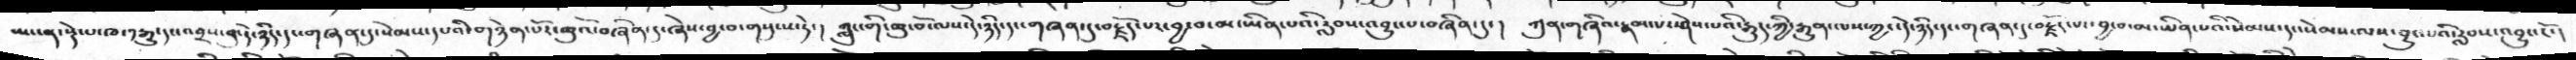ཡང་ན་སྡེ་པ་ཁ་༡རྒྱུ་དང་འབྲས་བུ་དེ་ཉིད་དང་གཞན་དུ་སེམས་དཔའི་གཉེན་པོར་ཆུའོ་བཞིན་དུ་ཞེས་བྱ་བ་གསུངས་ཏེ་།  ཀླུང་གི་ཆུ་བོ་ལས་དེ་ཉིད་དང་གཞན་དུ་བརྗོད་པར་བྱ་བ་མ་ཡིན་པའི་རླབས་འབྱུང་པ་བཞིན་དུ།  ཀུན་གཞིའ་རྣམ་པར་ཤེས་པའི་རྒྱུད་ཀྱི་རྒྱུན་ལས་ཀྱང་དེ་ཉིད་དང་གཞན་དུ་བརྗོད་པར་བྱ་བ་མ་ཡིན་པའི་སེམས་དང་སེམས་ལས་བྱུང་པའི་རླབས་འབྱུང་ངོ་།
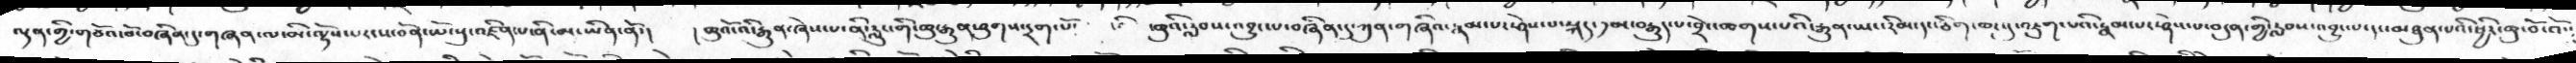ལྡན་གྱི་གཙོའ་བོ་བཞིན་དུ་གཞན་ལ་མི་ལྟོས་པར་ས་བོན་ཡོངསུ་འཛིན་པ་ནི་མ་ཡིན་ནོ་།  །ཆུའོ་འི་རྒྱུན་ཞེས་པ་ནི་རླུང་གི་ཆུ་རྒྱུན་ཤུགས་དྲག་པོ་  ཆུའི་རླབས་འབྱུང་པ་བཞིན་དུ་ཀུན་གཞིའ་རྣམ་པར་ཤེས་པ་སྐད་༡མ་བརྒྱུད་པ་བྲེང་ཆགས་པའི་རྒྱུན་ཡང་རིམ་དང་ཅིག་ཆར་དུ་འཇུག་པའི་རྣམ་པར་ཤེས་པ་བདུན་གྱི་རླབས་འབྱུང་པ་དང་མཐུན་པའི་ཕྱིར་ཆུ་བོ་འོ་༴
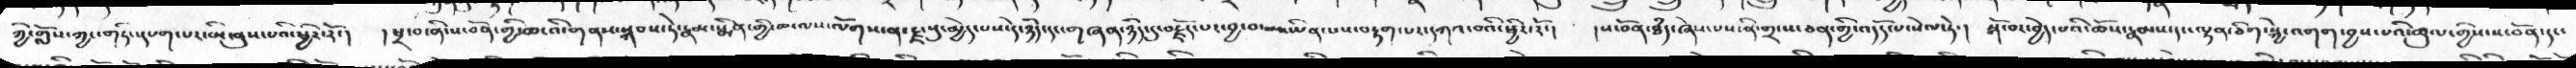ཀྱི་གློས་ཀྱང་གཏིང་དཔག་པར་མི་ནུས་པའི་ཕྱིར་རོ་།  །ཕྲ་བ་ནི་ས་བོན་གྱི་ཆ་འི་གནས་སསྐབས་ཏེ་རྣམ་སྨིན་གྱི་ཆ་ལས་ལོགས་ན་རྫ་སུ་མྱེད་པས་དེ་ཉིད་དང་གཞན་ཉིད་དུ་བརྗོད་པར་བྱ་བ་མ་ཡིན་པས་བརྟག་པར་དཀའ་བའི་ཕྱིར་རོ་།   །ས་བོན་ཐདཾ་ཞེས་པས་ནི་གྲངས་ཅན་གྱི་འདོད་པ་སེལ་ཏེ་།  སྒོ་བར་བྱེད་པའི་ཆོས་རྣམས་དང་ལྷན་ཅིག་སྐྱེ་འགག་བྱས་པའི་ཚུལ་གྱི་ས་བོན་དང་
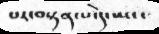པར་བསྟན་པ་དེ་ཡང་
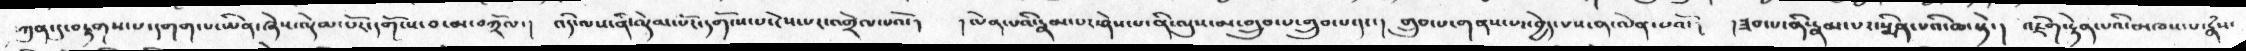ཀུན་དུ་བརྟགས་པ་དགག་པ་ཡིན་ཞེས་ལྡེམ་པོར་དགོངས་བ་མ་བཀྲོལ་།  འདི་ལས་ནི་ལྡེམ་པོར་དགོངས་པ་ངེས་པར་འགྲེལ་པའོ་།  །ལེན་པའི་རྣམ་པར་ཤེས་པ་ནི་ལུས་མ་གྲུབ་པ་གྱུབ་པ་དང་།  གྲུབ་པ་གནས་པར་བྱེད་པས་ན་ལེན་པའོ་།  །ཟབ་པ་ནི་རྣམ་པར་སྨིན་པའི་ཆ་སྟེ་།  འཇིག་རྟེན་པའི་མཁས་པ་རྣཾས་
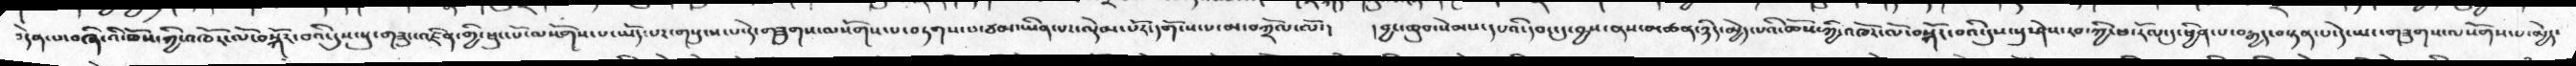བདེན་པ་བཞི་འི་ཆོས་ཀྱི་འཁོར་ལོ་བསྐོར་བའི་དུས་སུ་གཟུང་འཛིན་གྱི་ཕུང་པོ་ལསོགས་པ་ཡོད་པར་གསུངས་པ་དེ་གཟུགས་ལསོགས་པ་བཏག་པ་ཙམ་ཡིན་པར་ལྡེམ་པོར་དདགོངས་པ་མ་བཀྲོལ་ལོ་།   །བྱང་ཆུབ་སེམས་དཔའི་དབང་དུ་བྱས་ནས་མཚན་ཉིད་མྱེད་པའི་ཆོས་ཀྱི་འཁོར་ལོ་བསྐོར་བའི་དུས་སུ་ཤེས་རབ་ཀྱི་ཕ་རོལ་དུ་ཕྱིན་པ་བརྒྱད་བསྟན་པ་དེ་ཡང་གཟུགས་ལསོགས་པ་མྱེད་
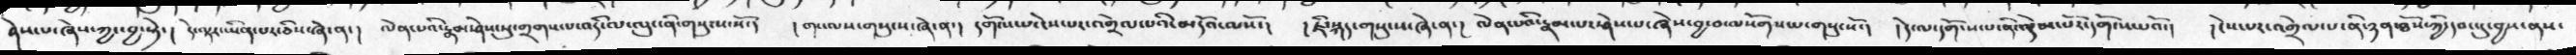ཉེས་པ་ཞེས་ཀྱང་བྱ་སྟེ་།  དེ་ལྟར་ཡིན་པར་ཅིས་ཞེ་ན་།  ལེན་པའི་རྣམ་ཤེས་སུ་གྲགས་པ་འདི་ལ་ལུང་ནི་གསུངས་སོ་།   །གང་ལས་གསུངས་ཞེ་ན་།  དགོངས་པ་ངེས་པར་འགྲེལ་པའི་མདོའ་ལསོ་།  །ཇི་སྐད་གསུངས་ཞེ་ན་།  ལེན་པའི་རྣམ་པར་ཤེས་པ་ཞེས་བྱ་བ་ལསོགས་པ་གསུངསོ་།  །དེ་ལ་དགོངས་པ་ནི་ལྡེམ་པོར་དགོངས་པའོ་།  །ངེས་པར་འགྲེལ་པ་ནི་ཉན་ཐོས་ཀྱི་དབང་དུ་བྱས་ནས་
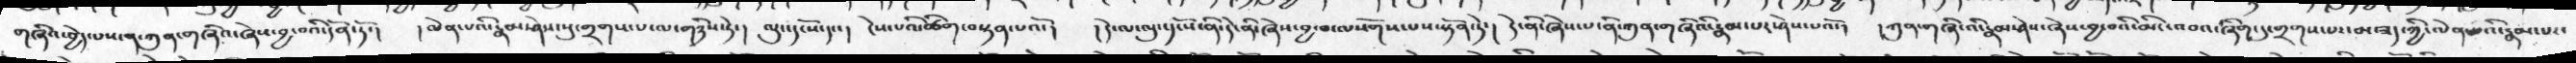གཞིའ་བྱེད་པས་ན་ཀུན་གཞིའ་ཞེས་བྱ་བའི་དོན་ཏོ་།  །ལེན་པའི་རྣམ་ཤེས་སུ་གྲགས་པ་ལ་གཉིས་ཏེ་།  ལུས་དངོས་དང་།  ངེས་པའི་ཚིག་བསྟན་པའོ་།   །དེ་ལ་མུ་དང་སོ་ནི་དེ་ནི་ཞེས་བྱ་བ་ལསོགས་པས་སྟོན་ཏེ་།  དེ་ནི་ཞེས་པ་ནི་ཀུན་གཞིའི་རྣམ་པར་ཤེས་པའོ་།  །ཀུན་གཞི་འི་རྣམ་ཤེས་ཞེས་བྱ་བའི་མིང་འབའ་ཞིག་དུ་གྲགས་པར་མ་ཟད་ཀྱི་ལེན་པའི་རྣམ་པར་
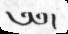༄༅།
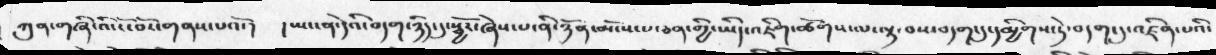ཀུན་གཞི་འི་ངོ་བོར་གནས་པའོ་།  །ཡང་ན་དེའི་བདག་ཉིད་དུ་སྦྱོར་ཞེས་པ་ནི་ཉོན་མོངས་པ་ཅན་གྱི་ཡིད་འཇིག་ཚོགས་ལ་ལྟ་བས་བདག་དུ་དམྱིགས་ཏེ་བདག་དུ་འཛིན་པའི་
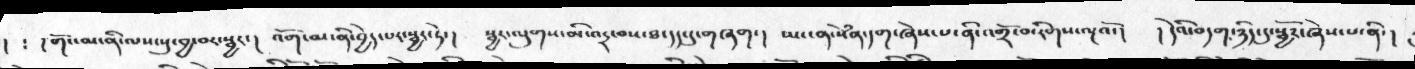། ༴ །གོང་མ་ནི་ལས་སུ་བྱ་བར་སྦྱར་།  འོག་མ་ནི་བྱེད་པར་སྦྱར་ཏེ་།  སྦྱར་ལུགས་མི་འདྲ་བས་ཐ་དད་དུ་གཞག་།  ཡང་ན་སེཾན་དག་ཞེས་པ་ནི་འགྲོ་བ་རིགས་ལྔའོ་།  །དེའི་བདག་ཉིད་དུ་སྦྱོར་ཞེས་པ་ནི་།
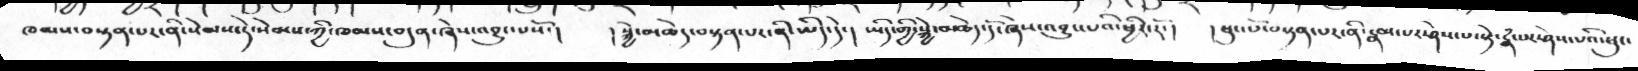ཁམས་བསྟན་པར་ནི་སེམས་ཏེ་སེམས་ཀྱི་ཁམས་བདུན་ཞེས་འབྱུང་པསོ་།  །སྐྱེ་མཆེད་བསྟན་པར་ནི་ཡིད་དེ་།  ཡིད་གྱི་སྐྱེ་མཆེད་དོ་ཞེས་འབྱུང་པའི་ཕྱིར་རོ་།  །ཕུང་པོ་བསྟན་པར་ནི་རྣམ་པར་ཤེས་པ་སྟེ་རྣཾ་པར་ཤེས་པའི་ཕུང་་
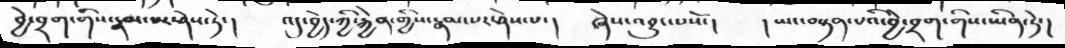བྱེ་བྲག་གིས་རྣམ་པར་ཤེས་ཏེ་།   འདུ་བྱེད་ཀྱི་རྐྱེན་གྱིས་རྣམ་པར་ཤེས་པ་།  ཞེས་འབྱུང་པསོ་།   །ཡང་བསྟན་པའི་བྱེ་བྲག་གིས་ཡིན་ཏེ་།
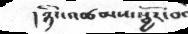།ཉིང་འཚམས་སྦྱོར་བ་
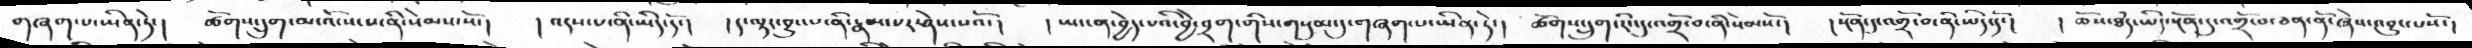གཞག་པ་ཡིན་ཏེ་།   ཚོགས་དྲུག་མ་འོངས་པ་ནི་སེམས་སོ་།    ། འདས་པ་ནི་ཡིད་དོ་།   ། ད་ལྟར་བྱུང་བ་ནི་རྣམ་པར་ཤེས་པའོ་།  ། ཡང་ན་བྱེད་པའི་བྱེ་བྲག་གིས་གསུམ་དུ་གཞག་པ་ཡིན་ཏེ་།   ཚོགས་དྲུག་རིང་དུ་འགྲོ་བ་ནི་སེམསོ་།   ། སྔོན་དུ་འགྲོ་ནི་ཡིད་དོ་།    ། ཆོས་ཐཾད་ཡིད་སྔོན་དུ་འགྲོ་བ་ཅན་ནོ་ཞེས་འབྱུང་པསོ་།
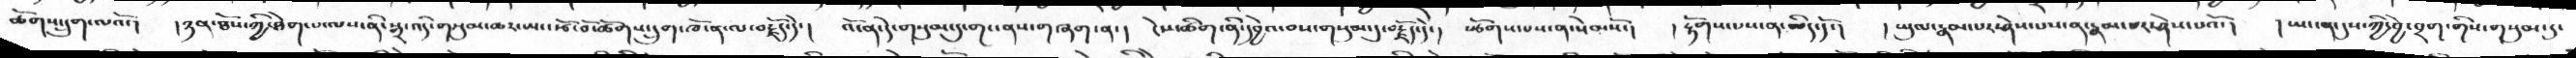ཚོགས་དྲུག་ལའོ་།   ། ཉན་ཐོས་ཀྱི་ཐེག་པ་ལས་ནི་སྒྲ་འདི་གསུམ་ཆར་ཡང་རྩོ་བོ་ཚོགས་དྲུག་ཁོ་ན་ལ་བརྗོད་དེ་།   འོ་ན་དེ་གསུམ་དུ་གང་ནས་གཞག་ན་།  ངེས་ཚིག་ནི་དབྱེའ་བས་གསུམ་དུ་བརྗོད་དེ་།   སྩོགས་པས་ན་སེམས་སོ་།  ། རྟོགས་པས་ན་ཡིད་དོ་།  །ཡུལ་རྣམ་པར་ཤེས་པས་ན་རྣམ་པར་ཤེས་པའོ་།   ། ཡང་ན་དུས་ཀྱི་བྱེ་བྲག་གིས་གསུམ་དུ་
